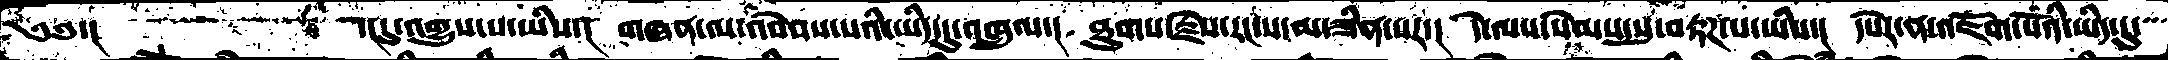༄༅་།       ་།དུ་འགྱུས་པ་ཡིས་།  གཞན་ལ་འབེབས་པའི་ཡིད་དུ་འཁྲུལ་།  ཐུགས་རྗེས་རང་ས་མ་ཟིན་པར་།  དེ་ལས་སེམས་སུ་བརྟཌ་པ་ཡིས་།  དཔེར་ན་འཇོག་པའི་ཡིད་དུ་
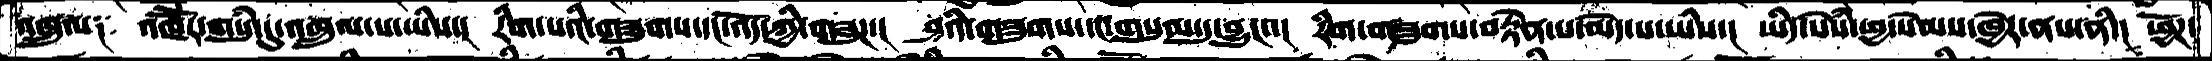འཁྲུལ༑  འཁཽར་གསུམ་དུ་འཁྲུལ་པ་ཡིས་་།  རིག་པའི་གཟུགས་དང་འོད་ཀྱི་གཟུཌ་།  ཤའི་གཟུགས་དང་གསུམ་དུ་བྱུང་་།  རིག་གཟུགས་བརྟེན་པ་མེད་པཡིས་།  ཡིད་སེཾས་ཕྱ་སེམས་ཁྱེར་ནས་ནི་།  ཕྱོཌ་
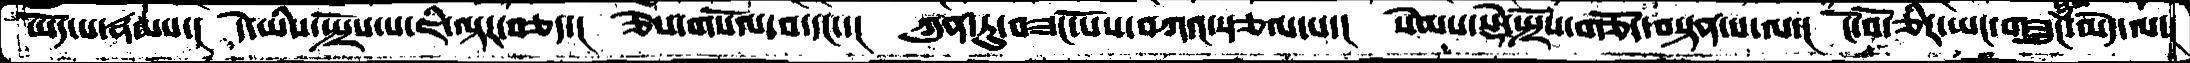ཡོད་པ་རྣམས་། དེ་ཡིས་སྤྲོས་པ་ཇི་ལྟར་བཅད་། ཅེས་གསོལ་བ་དང་་། ཀུན་ཏུ་བཟང་པོས་བཀའ་སྩལ་པ་། སེམས་སྡེ་སྤྲོས་གཅོད་བསྟན་པ་ལ་། ངོ་བོ་ཅིར་ཡང་གཟུང་མེད་ལ།
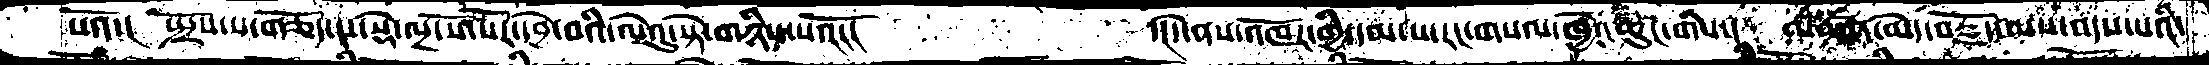པའོ་།  སྤྲོས་པ་གཅོད་པ་སྡེ་ལྔ་སོ་སོར་དབྱེ་བའི་ལེའུ་སྟེ་གཉིས་པའོ་།    ་།དེ་ནས་འཁོར་གྱི་དམ་པ་རང་གསལ་ཁྱེའུ་ཆུང་གིས་།  མཚན་མེད་བརྗོད་ལས་འདས་པའི་
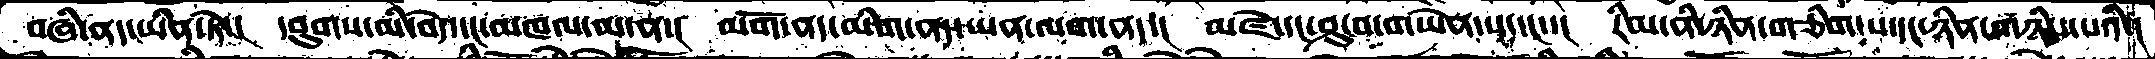བཞི་ནད་ཡིན་ཏེ་།  དབུགས་མི་བདེ་དང་མཁལ་མ་ན་།  མགོ་ནད་མིག་ནད་ཡན་ལག་ནད་།  མཛེ་དང་ཤུ་བ་གཡེན་པ་དང་་།  རིམ་ནི་ཉིན་གཅིག་པ་དང་ཉིན་གཉིས་པའི་།
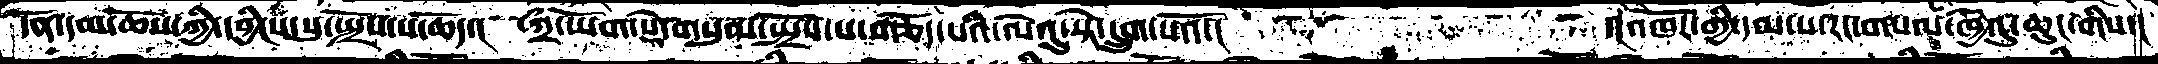དོན་དམ་ཆོས་ཀྱི་དབྱིངས་སུ་སྤྲོས་པ་ཆོད་།  ཀྲི་ཡོག་སྡེ་གསུམ་སྤྲོས་པ་གཅོད་པའི་ལེའུ་སྟེ་དྲུག་པའོ་།    ་།་འཁོར་གྱི་དམ་པ་རང་གསལ་ཁྱེའུ་ཆུང་གིས་།
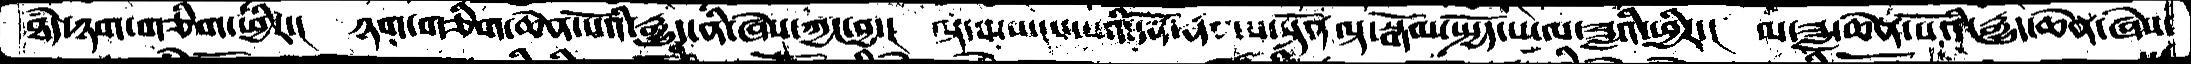ཐཾད་ཉག་གཅིག་ཕྱིར་།  ཉག་གཅིག་ཆེན་པོའི་རྒྱུད་ནི་ཞེས་ཀྱང་བྱ་། ལྟ་བ་ཡངས་པའི་དོན་རྣམས་སྟོན་ལྟ་སྒོམ་སྤྱོད་པ་ལ་ཟླའི་ཕྱིར་།  མ་ཟླ་ཆེན་པོའི་རྒྱུད་ཆེན་ཞེས་
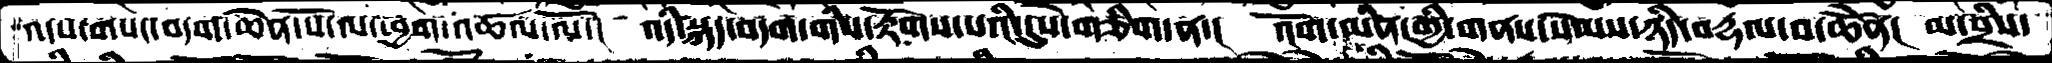འདས་གསང་བདག་ཆེན་པོ་ལ་ཕྱག་འཚལ་ལོ་།  འདི་སྐད་བདག་གིས་རྟོགས་པའི་དུས་གཅིག་ན་།  འོག་མིན་གྱི་གནས་སེམས་ཉིད་བརྡལ་བ་ཆེནོ།  མ་བྲིས་
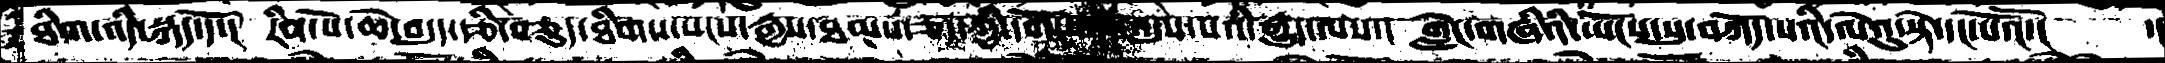ཐིག་འདི་སྐད་དོ་།  རིན་པོཆེ་བདུད་རྩི་བཅུད་ཐིགས་སངས་རྒྱས་ཐམས་ཅད་ཀྱི་དགོངས་པ་འདུས་པའི་རྒྱུད་ལས་།  གླེང་གཞིའི་ཡོངས་སུ་བཀོད་པའི་ལེའུ་སྟེ་དང་པོའོ་།  ་།
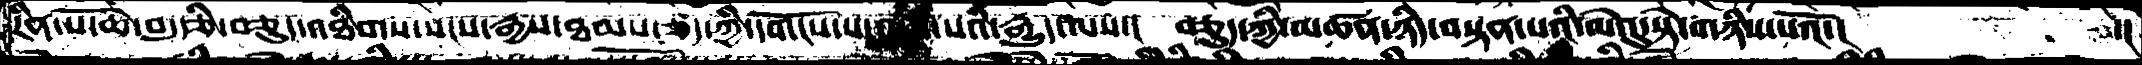རིན་པོ་ཆེ་བདུད་རྩི་བཅུད་འཐིགས་སངས་རྒྱས་ཐམས་ཅད་ཀྱི་དགོངས་པ་འདུསཔའི་རྒྱུད་ལས་།  བཅུད་ཀྱི་མཚན་ཉིད་བསྟན་པའི་ལེའུ་སྟེ་གཉིས་པའོ་།  ་།
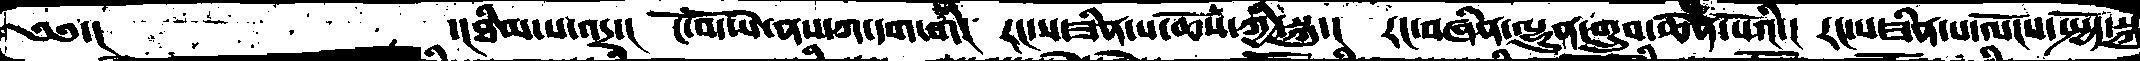༄༅་།  ་།ཐིམ་པ་འདྲ་།  ངོ་བོ་ཡེ་ནས་ཀ་དག་གི། རང་ས་ཟིན་པ་ཆོས་ཀྱི་སྐུ་།  རང་བཞིན་ལྷུན་གྲུབ་ཆེན་པོའི་།  རང་ས་ཟིན་པ་ལོངས་སྤྱོད་སྐུ
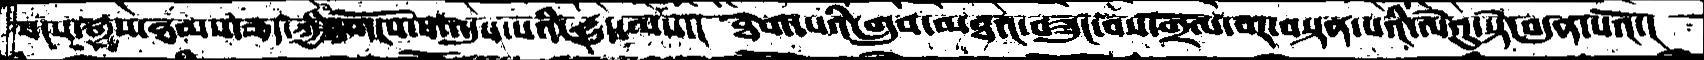སངས་རྒྱས་ཐམས་ཅད་ཀྱི་དགོངས་པ་འདུས་པའི་རྒྱུད་ལས་།  ཐེག་པའི་གྲུབ་མཐའ་བཟུང་བས་གྲོལབར་བསྟན་པའི་ལེའུ་སྟེ་བདུན་པའོ་།
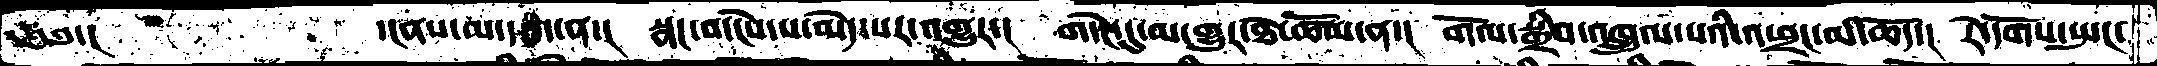༄༅་།  ་།ནས་མ་རྩད་ན་། སྣང་བ་ངེས་པམེད་པར་འགྱུར་།  གདེང་དུ་མ་གྱུར་ཐེ་ཚོམ་ན་། གོལ་སྒྲིབ་འཁྲུལཔའི་འཕྲང་མི་ཆོད་།  རེ་དོགས་སྤང་
